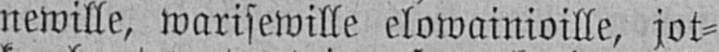newille, warisewille elowainioille, jot-
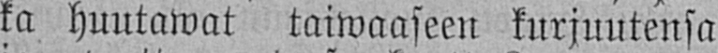ka huutawat taiwaaseen kurjuutensa
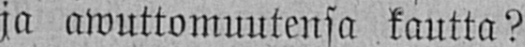ja awuttomuutensa kautta?
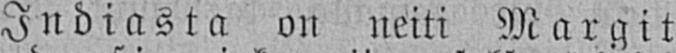Indiasta on neiti Margit
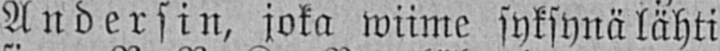Andersin, joka wiime syksynä lähti
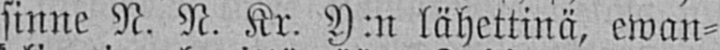sinne N. N. Kr. Y:n lähettinä, ewan-
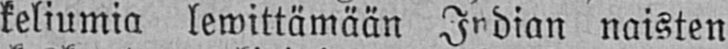keliumia lewittämään Indian naisten
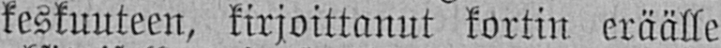keskuuteen, kirjoittanut kortin eräälle
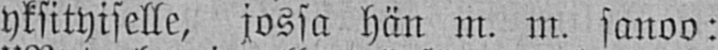yksityiselle, jossa hän m. m. sanoo:
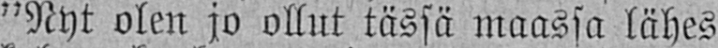"Nyt olen jo ollut tässä maassa lähes
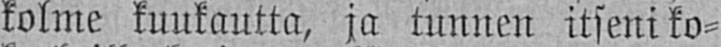kolme kuukautta, ja tunnen itseni ko-
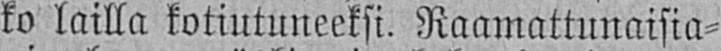ko lailla kotiutuneeksi. Raamattunaisia-
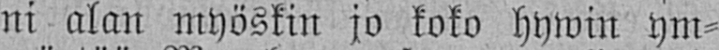ni alan myöskin jo koko hywin ym-
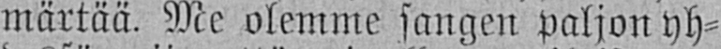märtää. Me olemme sangen paljon yh-
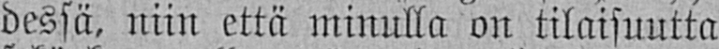dessä, niin että minulla on tilaisuutta
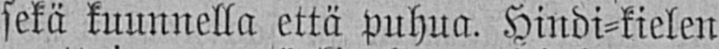sekä kuunnella että puhua. Hindi-kielen
